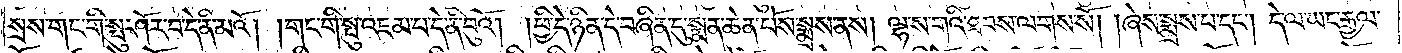སྲས་གང་གི་སྤུ་ཤོར་བ་དེ་ནི་མའོ། །གང་གི་སྤུ་འཇམ་པ་དེ་ནི་བུའོ། །ཕྱི་དེ་ཉིན་དེ་བཞིན་དུ་སྨན་ཆེན་པོས་སྨྲས་ནས། ལྷ་ས་གའི་ཐབས་ལགས་སོ། །ཞེས་སྨྲས་པ་དང༌། དེ་ལ་ཡང་རྒྱལ་
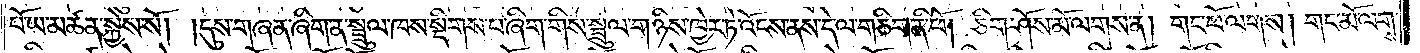པོ་ཡ་མཚན་སྐྱེས་སོ། །དུས་གཞན་ཞིག་ན་སྦྲུལ་ཁས་སྡིགས་པ་ཞིག་གིས་སྦྲུལ་གཉིས་ཁྱེར་ཏེ་འོངས་ནས་དེ་ལ་གཅིག་ནི་ཕོ། ཅིག་ཤོས་མོ་ལགས་ན། གང་ཕོ་ལགས། གང་མོ་ལགས་
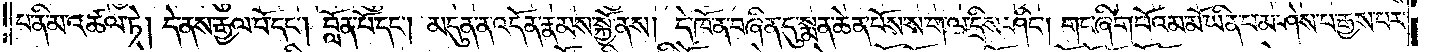པ་ནི་མ་འཚལ་ཏེ། དེ་ནས་རྒྱལ་པོ་དང༌། བློན་པོ་དང༌། མདུན་ན་འདོན་རྣམས་སྐྱོ་ནས། དེ་ཁོ་ན་བཞིན་དུ་སྨན་ཆེན་པོས་ས་ག་ལ་དྲིས་ཤིང༌། གང་ཞིག་པོའམ་མོ་ཡིན་པ་མ་ཤེས་པ་རྒྱས་པར་
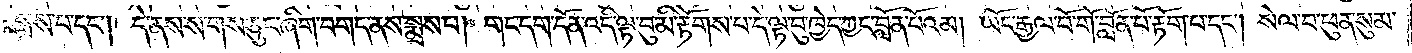སྨྲས་པ་དང༌། དེ་ནས་ས་གས་ཅུང་ཞིག་བགད་ནས་སྨྲས་པ། གང་དག་དོན་འདི་ལྟ་བུ་མི་རྟོགས་པ་དེ་ལྟ་བུ་ཁྱེད་ཀྱང་བློན་པོའམ། ཡོང་རྒྱལ་པོ་གོ་བློན་པོ་རྟོག་པ་དང༌། སེལ་བ་ཕུན་སུམ་
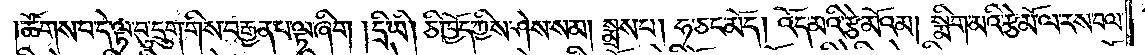ཚོགས་པ་དེ་ལྟ་བུ་དྲུག་གིས་བརྒྱན་པ་ལྟ་ཞིག །དྲི་ཡི། ཅི་ཁྱོད་ཀྱིས་ཤེས་སམ། སྨྲས་པ། ཧ་ཅང་མོད། འོད་མའི་རྩེ་མོའམ། སྨིག་མའི་རྩེ་མོ་ལ་རས་བལ་
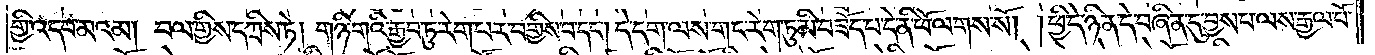གྱི་འདབ་མའམ། བལ་གྱིས་དཀྲིས་ཏེ། གཉི་གའི་རྒྱབ་ཏུ་རེག་པར་བགྱིས་པ་དང༌། དེ་དག་ལས་གང་རེག་ཏུ་མི་བཟོད་པ་དེ་ནི་ཕོ་ལགས་སོ། །ཕྱི་དེ་ཉིན་དེ་བཞིན་དུ་བྱས་པ་ལས་རྒྱལ་པོ་
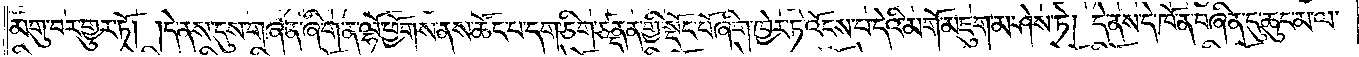མགུ་བར་གྱུར་ཏོ། །དེ་ནས་དུས་གཞན་ཞིག་ན་ལྷོ་ཕྱོགས་ནས་ཚོང་པ་དག་ཅིག་ཙནྡན་གྱི་སྡོང་པོ་ཞིག་ཁྱེར་ཏེ་འོངས་པ་དེའི་མགོ་མཇུག་མ་ཤེས་ཏེ། དེ་ནས་དེ་ཁོ་ན་བཞིན་དུ་ཆུང་མ་ལ་
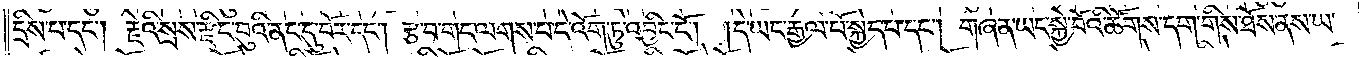དྲིས་པ་དང༌། རྗེའི་སྲས་རྫིང་བུའི་ནང་དུ་བོར་དང༌། རྩ་བ་གང་ལགས་པ་དེ་འོག་ཏུ་འབྱིང་ངོ༌། །དེ་ཡང་རྒྱལ་པོ་སྐྱེད་པ་དང༌། གཞན་ཡང་སྐྱེ་བོའི་ཚོགས་དག་གིས་ཐོས་ནས་ཡ་
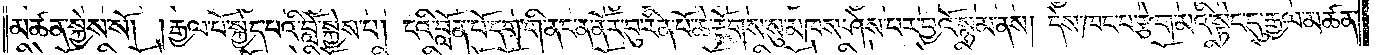མཚན་སྐྱེས་སོ། །རྒྱལ་པོ་སྐྱེད་པའི་བློ་སྐྱེས་པ། ངའི་བློན་པོ་དག་གི་ནང་ན་ནོར་བུ་རིན་པོ་ཆེ་རྟོགས་སུ་མཁས་ཤེས་པར་བྱའོ་སྙམ་ནས། དེས་ཁང་པ་རྩེག་མའི་སྟེང་དུ་རྒྱལ་མཚན་
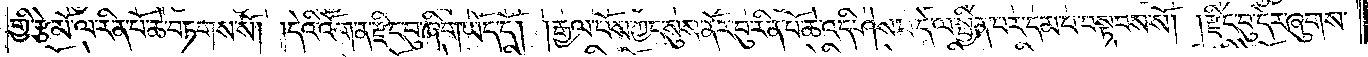གྱི་རྩེ་མོ་ལ་རིན་པོ་ཆེ་བཏགས་སོ། །དེའི་འོག་ན་རྫིང་བུ་ཞིག་ཡོད་དོ། །རྒྱལ་པོས་ཀྱང་སུས་ནོར་བུ་རིན་པོ་ཆེ་འདི་ཤེས་པ་དེ་ལ་སྦྱིན་པར་དམ་པ་བསྟབས་སོ། །རྫོང་བུ་དེར་ཞུགས་
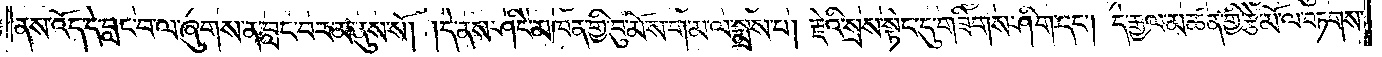ནས་འོད་དེ་བླང་བ་ལ་ཞུགས་ན་བླང་བར་མ་ནུས་སོ། །དེ་ནས་ཤིང་མཁན་གྱི་བུ་མོ་ས་ག་མ་ལ་སྨྲས་པ། རྗེའི་སྲས་སྟེང་དུ་གཟིགས་ཤིག་དང༌། དེ་རྒྱལ་མཚན་གྱི་རྩེ་མོ་ལ་བཏགས་
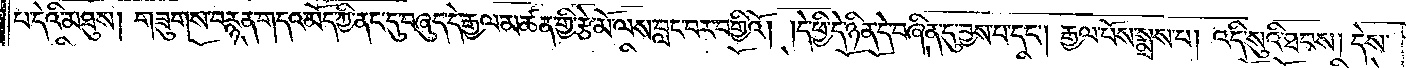པ་དེའི་མཐུས། གཟུགས་བརྙན་གདའ་མོད་ཀྱི་ནང་དུ་བཞུད་དེ་རྒྱལ་མཚན་གྱི་རྩེ་མོ་ལས་བླང་བར་བགྱིའོ། །དེ་ཕྱི་དེ་ཉིན་དེ་བཞིན་དུ་བྱས་པ་དང༌། རྒྱལ་པོས་སྨྲས་པ། འདི་སུའི་ཐབས། དེས་
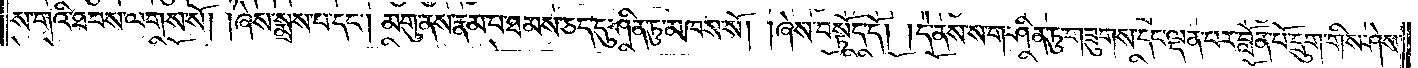ས་གའི་ཐབས་ལགས་སོ། །ཞེས་སྨྲས་པ་དང༌། མགུ་ནས་རྣམ་པ་ཐམས་ཅད་དུ་ཤིན་ཏུ་མཁས་སོ། །ཞེས་བསྟོད་དོ། །དེ་ནས་ས་ག་ཤིན་ཏུ་གཟུགས་དང་ལྡན་པར་བློན་པོ་དྲུག་གིས་ཤེས་
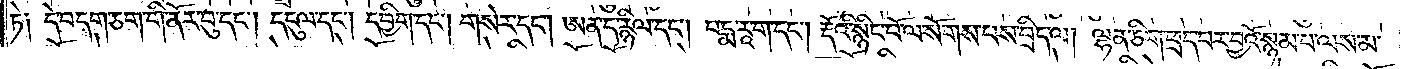ཏེ༑ དེ་བདག་ཅག་གི་ནོར་བུ་དང༌། དངུལ་དང༌། དབྱིག་དང༌། གསེར་དང༌། ཨན་ད་རྙིལ་དང༌། པདྨ་རཱ་ག་དང༌། རྡོའི་སྙིང་པོ་ལ་སོགས་པས་བྲིད་ལ། ལྷན་ཅིག་ཕྲད་པར་བྱའོ་སྙམ་པ་ལས་མ་
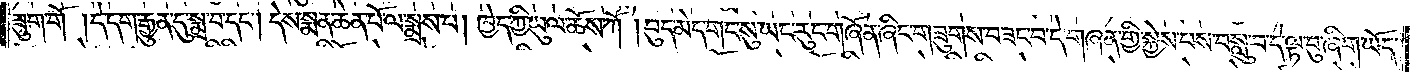ཟུག་གོ །དེ་དག་རྒྱུན་དུ་སྨྲ་བ་དང༌། དེས་སྨན་ཆེན་པོ་ལ་སྨྲས་པ། ཁྱེད་ཀྱི་ཡུལ་ཆོས་ཀོ །བུད་མེད་གང་སུ་ཡང་རུང་གཞོན་ཞིང་གཟུགས་བཟང་བ་དེ་གཞན་གྱི་སྐྱེས་པས་བསླུ་བ་དེ་ལྟ་བུ་ཞིག་ཡོད་
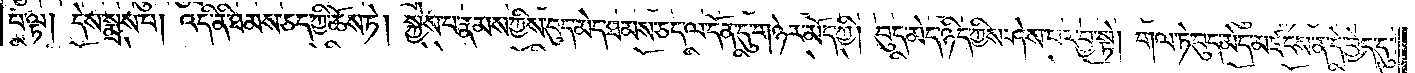པ་ལྟ། དེས་སྨྲས་པ། འདི་ནི་ཐམས་ཅད་ཀྱི་ཆོས་ཏེ། སྐྱེས་པ་རྣམས་ཀྱིས་བུད་མེད་ཐམས་ཅད་ལ་དོན་དུ་གཉེར་མོད་ཀྱི། བུད་མེད་ཉིད་ཀྱིས་ཤེས་པར་བྱ་སྟེ། གལ་ཏེ་བུད་མེད་མཛངས་ན་དེ་བྱེད་དུ་
